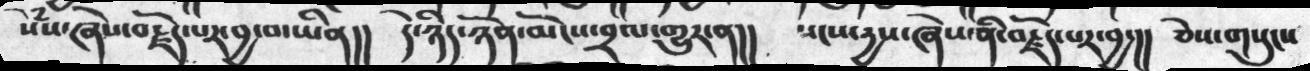སེཾས་ཞེས་བརྗོད་པར་བྱ་བ་ཡིན།།  དེ་ཉིད་ཉོན་མོངས་བྲལ་གྱུར་ན།།  སངས་དྱས་ཞེས་ནི་བརྗོད་པར་བྱ་།། ཅེས་གསུངས
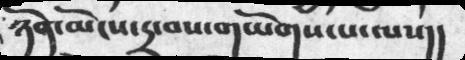ཉོན་མོངས་དྲ་བས་གཡོགས་པ་ལས།།
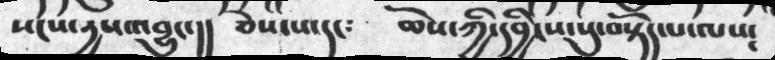སངས་དྱས་འབྱུང་།།  ཅེས་པ་དང༴  ཆོས་ཀྱི་དབྱིངས་སུ་བསྟོད་པ་ལས༴
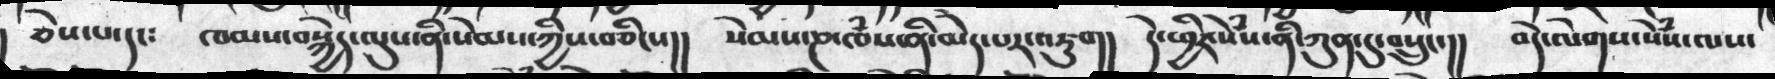ཅེས་པ་དང༴  ཁམས་བསྐྱེད་ལུས་ནི་སེམས་ཀྱིས་བཅིངས།།  སེམས་ཎ་ཁཾས་ནི་མེད་པར་འཇུག།  དེ་ཕྱིར་སེཾས་ནི་ཀུན་དུ་བསྲུང་།།  བདེ་ལེགས་སེཾས་ལས
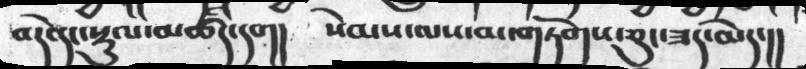བདེན་སྟུལ་མཚིད་དག། སེམས་ལས་མ་གཏོགས་ཅུང་ཟད་མེད་།།
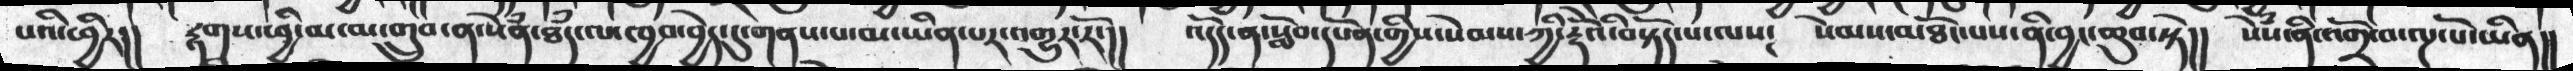པའི་ཕྱིར།། རྟགས་ཕྱི་མ་མ་གྲུབ་ན་སེཾན་ཐཾད་ལ་ཁྱབ་བྱེད་དུ་གནས་པ་མ་ཡིན་པར་འགྱུར་རོ་།། འདོད་ན་སློབ་དཔོན་གྱིས་སེམས་ཀྱི་རྡོའི་བསྟོད་པ་ལས༴ སེམས་མཐོང་པས་བྱང་ཆུབ་སྟེ།། སེཾས་ནི་འགྲོ་བ་ལྔ་པོ་ཡིན།།
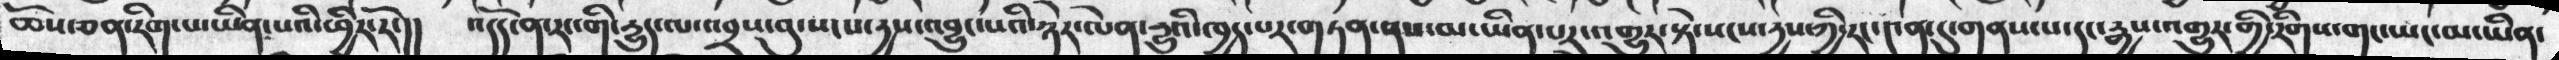ཆོས་ཅན་རིག་པ་ཡིན་པའི་ཕྱིར་རོ་།།  འདོད་ན་རང་གི་དྱུད་ལ་འབྲས་བུ་སངས་དྱས་འབྱུང་པའི་ཉེར་ལེན་དྱུའི་ཁྱད་པར་གཏན་ནས་མ་ཡིན་པར་འགྱུར་སྟེ་སངས་དྱས་ཀྱི་རང་༤ན་དུ་གནས་པ་དང་རྒྱས་འགྱུར་གྱི་རིགས་གང་ཡང་མ་ཡིན་
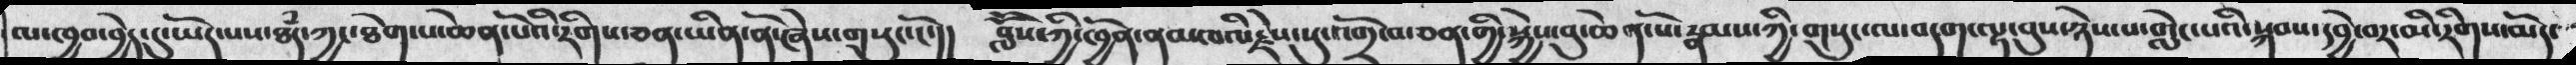ལ་ཁྱབ་བྱེད་དུ་ཡོད་པས་ཐཾད་ཀྱང་ཐེག་པ་ཆེན་པོའི་རིགས་ཅན་ཡིན་ནོ་ཞེས་གསུང་ངོ་།།   བླཽས་ཀྱི་ཁྱོན་ནམཁའི་རྗེས་སུ་འགྲོ་བ་ཅན་གྱི་སྐྱེས་བུ་ཆེན་པོ་རྣམས་ཀྱི་གསུང་ལ་བདག་ལྟ་བུས་ཉེས་པ་གླེང་པའི་སྐབས་དབྱེ་བར་མི་རིགས་མོད་
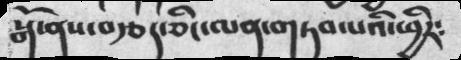སྒོ་ནས་བརྩད་ཅིང་ལན་གཏབ་པའི་ཕྱིར༴
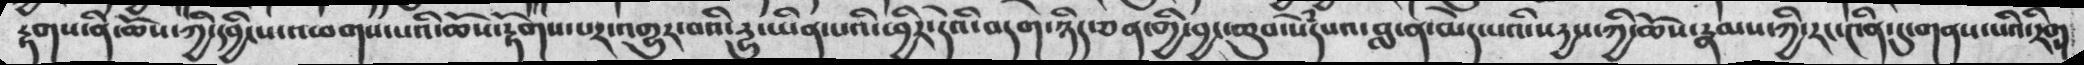རྟགས་ནི་ཆོས་དབྱིངས་འཕགས་པའི་ཆོས་རྟོགས་པར་འགྱུར་བའི་དྱུ་ཡིན་པའི་ཕྱིར་དེའི་བདག་ཉིད་ཅན་གྱི་བྱང་ཆུབ་སེཾདཔའ་བླ་ན་མེད་པའི་སདྱས་ཀྱི་ཆོས་རྣམས་ཀྱི་རང་༤ནི་དུ་གནས་པའི་རིག
